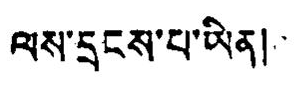ལས་དྲངས་པ་ཡིན།
